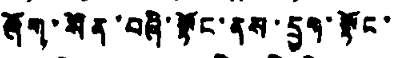ཞོག་སོན་བཞི་སྟོང་ནས་དྲུག་སྟོང་
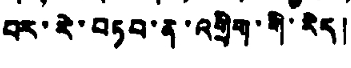པར་རེ་བཏབ་ན་འགྲིག་གི་རེད།
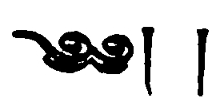༄༅། །
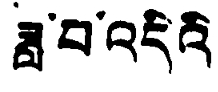ཟླ་བ་འདིའི
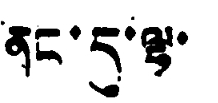ནང་དུ་ལྷ་
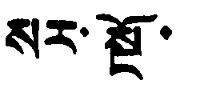སར་སྔོ་
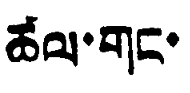ཚལ་གང་
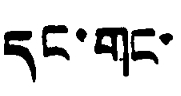དང་གང་
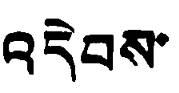འདེབས་
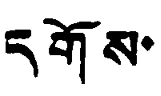དགོས་
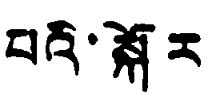པའི་སྐོར
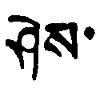ཤེས་
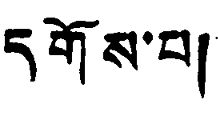དགོས་པ།
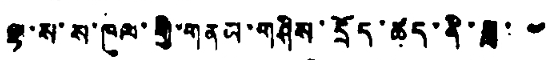ལྷ་ས་ས་ཁུལ་གྱི་གནམ་གཤིས་དྲོད་ཚད་ནི་ཟླ་ ༤
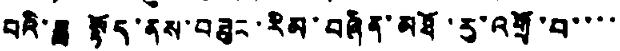པའི་ཟླ་སྟོད་ནས་བཟུང་རིམ་བཞིན་མཐོ་རུ་འགྲོ་བ་་་་
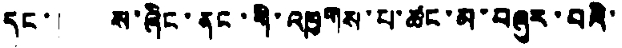དང་། ས་ཞིང་ནང་གི་འཁྱགས་པ་ཚང་མ་བཞུར་བའི་
